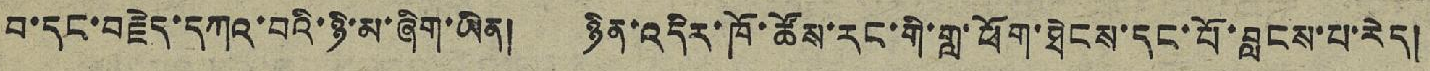བ་དང་བརྗེད་དཀའ་བའི་ཉི་མ་ཞིག་ཡིན། ཉིན་འདིར་ཁོ་ཚོས་རང་གི་གླ་ཕོག་ཐེངས་དང་པོ་བླངས་པ་རེད།
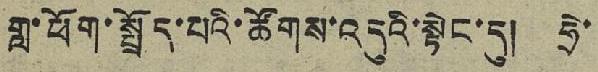གླ་ཕོག་སྤྲོད་པའི་ཚོགས་འདུའི་སྟེང་དུ། ཧྲེ་
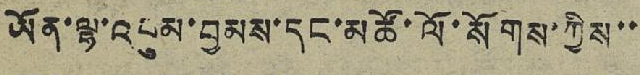ཡོན་ལྷ་འབུམ་བྱམས་དང་མཚོ་ལོ་སོགས་ཀྱིས་་
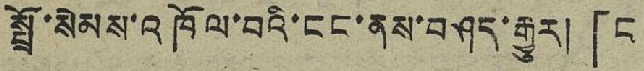སྤྲོ་སེམས་འཁོལ་བའི་ངང་ནས་བཤད་རྒྱུར། 「ང
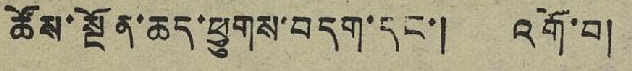ཚོས་སྔོན་ཆད་ཕྱུགས་བདག་དང་། འགོ་བ།
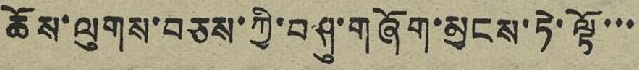ཆོས་ལུགས་བཅས་ཀྱི་བཤུ་གཞོག་མྱངས་ཏེ་ལྟོ་་་
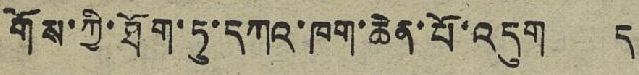གོས་ཀྱི་ཐོག་ཏུ་དགའ་ཁག་ཆེན་པོ་འདུག ད
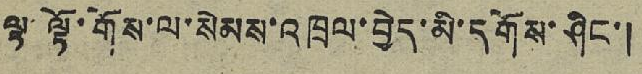ལྟ་ལྟོ་གོས་ལ་སེམས་འཁྲལ་བྱེད་མི་དགོས་ཤིང་།
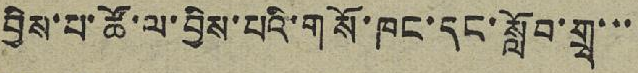བྱིས་པ་ཚོ་ལ་བྱིས་པའི་གསོ་ཁང་དང་སློབ་གྲྭ་་་
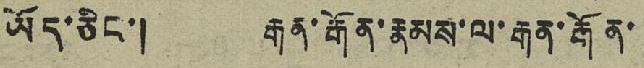ཡོད་ཅིང་། རྒན་རྒོན་རྣམས་ལ་རྒན་རྒོན་
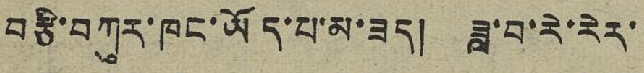བརྩི་བཀུར་ཁང་ཡོད་པ་མ་ཟད། ཟླ་བ་རེ་རེར་
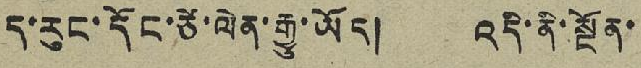ད་རུང་དོང་ཙེ་ལེན་རྒྱུ་ཡོད། འདི་ནི་སྔོན་
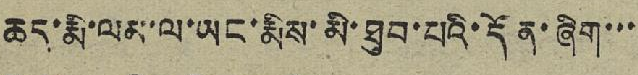ཆད་རྨི་ལམ་ལ་ཡང་རྨིས་མི་ཐུབ་པའི་དོན་ཞིག་་་
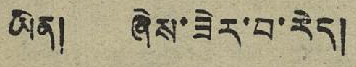ཡིན། ཞེས་ཟེར་བ་རེད།
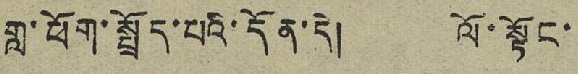གླ་ཕོག་སྤྲོད་པའི་དོན་དེ། ལོ་སྟོང་
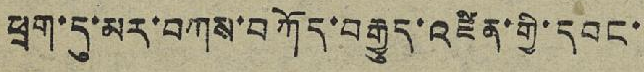ཕྲག་དུ་མར་བཀས་བཀོད་བརྒྱུད་འཛིན་གྱི་དབང་
